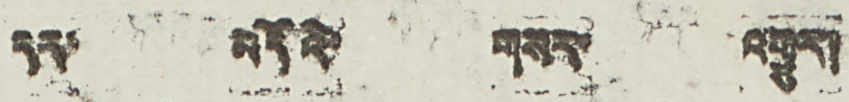དར་ མདོའི་ གསར་ འགྱུར།
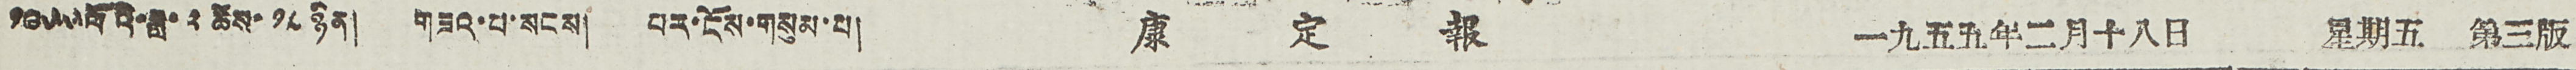༡༩༥༥ ལོའི་ཟླ་ ༢ ཚེས་ ༡༨ ཉིན། གཟའ་པ་སངས། པར་ངོས་གསུམ་པ། 康 定 報 一九五五年二月十八日 星期五 第三版
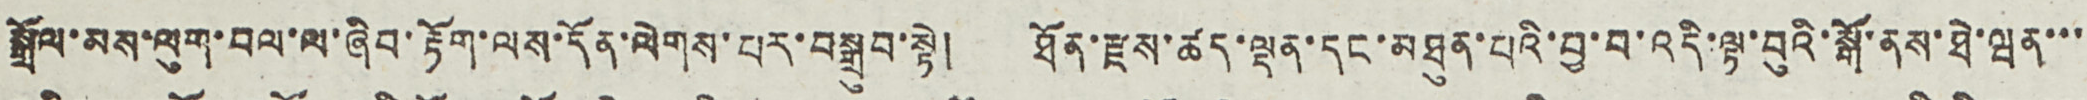སྒྲོལ་མས་ལུག་བལ་ལ་ཞིབ་རྟོག་ལས་དོན་ལེགས་པར་བསྒྲུབ་སྟེ། ཐོན་རྗས་ཚད་ལྡན་དང་མཐུན་པའི་བྱ་བ་འདི་ལྟ་བུའི་སྒོ་ནས་ཐེ་ཝན་་་
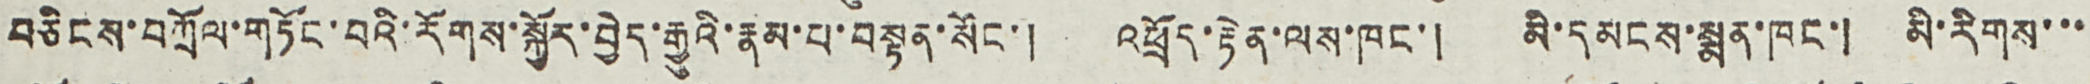བཅིངས་བཀྲོལ་གཏོང་བའི་རོགས་སྐྱོར་བྱེད་རྒྱུའི་རྣམ་པ་བསྟན་སོང་། འཕྲོད་རྟེན་ལས་ཁང་། མི་དམངས་སྨན་ཁང་། མི་རིགས་་་
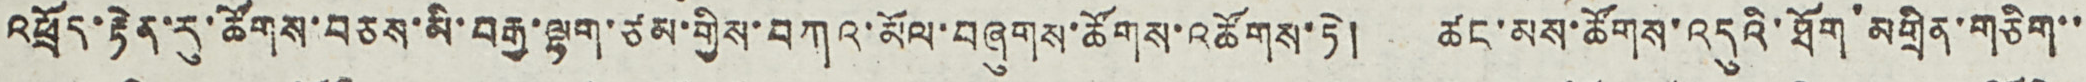འཕྲོད་རྟེན་རུ་ཚོགས་བཅས་མི་བརྒྱ་ལྷག་ཙམ་གྱིས་བཀའ་མོལ་བཞུགས་ཚོགས་འཚོགས་ཏེ། ཚང་མས་ཚོགས་འདུའི་ཐོག་མགྲིན་གཅིག་་
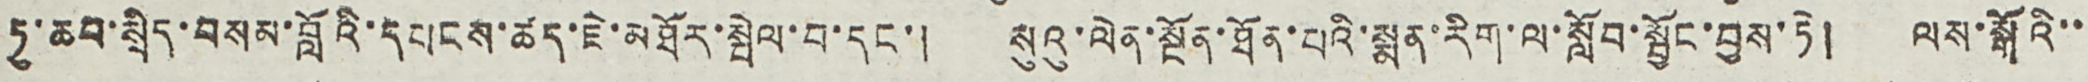ཏུ་ཆབ་སྲིད་བསམ་བློའི་དཔངས་ཚད་ཇེ་མཐོར་སྤེལ་བ་དང་། སུའུ་ལེན་སྔོན་ཐོན་པའི་སྨན་རིག་ལ་སློབ་སྦྱོང་བྱས་ཏེ། ལས་སྒོའི་་
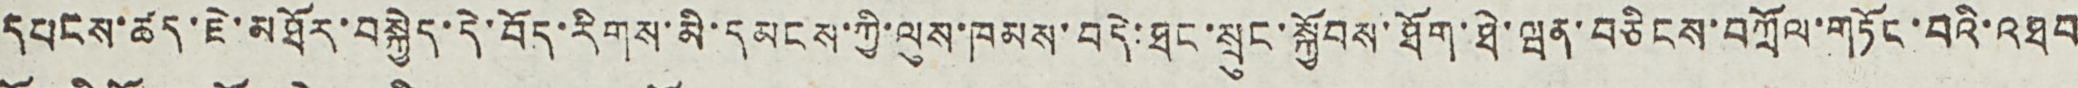དཔངས་ཚད་ཇེ་མཐོར་བསྐྱེད་དེ་བོད་རིགས་མི་དམངས་ཀྱི་ལུས་ཁམས་བདེ་ཐང་སྲུང་སྐྱོབས་ཐོག་ཐེ་ཝན་བཅིངས་བཀྲོལ་གཏོང་བའི་འཐབ
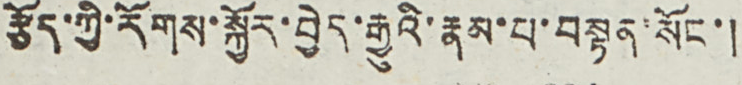རྩོད་ཀྱི་རོགས་སྐྱོར་བྱེད་རྒྱུའི་རྣམ་པ་བསྟན་སོང་།
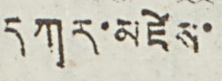དཀར་མཛེས་
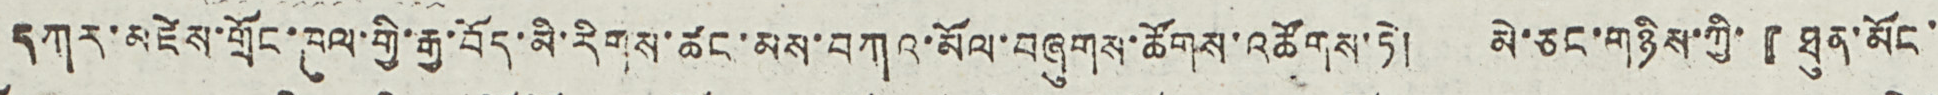དཀར་མཛེས་གྲོང་ཁུལ་གྱི་རྒྱ་བོད་མི་རིགས་ཚང་མས་བཀའ་མོལ་བཞུགས་ཚོགས་འཚོགས་ཏེ། མེ་ཅང་གཉིས་ཀྱི་『ཐུན་མོང་
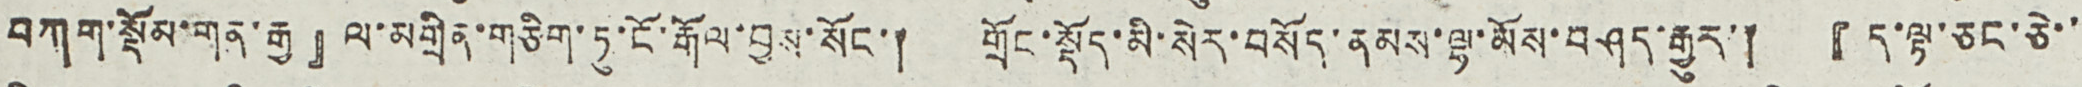བཀག་སྡོམ་གན་རྒྱ』ལ་མགྲིན་གཅིག་ཏུ་ངོ་རྒོལ་བྱས་སོང་། གྲོང་སྡོད་མི་སེར་བསོད་ནམས་ལྷ་མོས་བཤད་རྒྱུར་། 『ད་ལྟ་ཅང་ཅེ་་
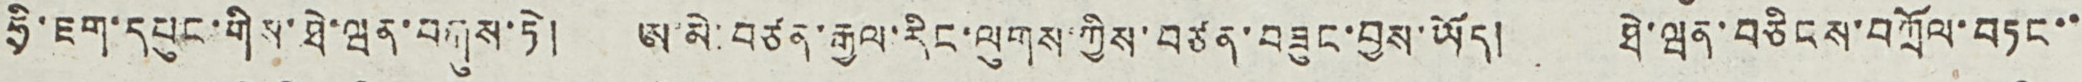ཧྲི་ཇག་དཔུང་གིས་ཐེ་ཝན་བརྐུས་ཏེ། ཨ་མེ་བཙན་རྒྱལ་རིང་ལུགས་ཀྱིས་བཙན་བཟུང་བྱས་ཡོད། ཐེ་ཝན་བཅིངས་བཀྲོལ་བཙང་་
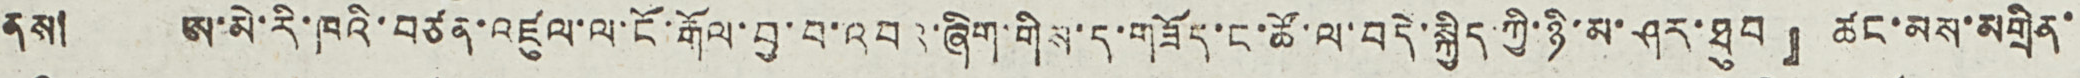ནས། ཨ་མེ་རི་ཁའི་བཙན་འཛུལ་ལ་ངོ་རྒོལ་བྱ་བ་འབའ་ཞིག་གིས་ད་གཟོད་ང་ཚོ་ལ་བདེ་སྐྱིད་ཀྱི་ཉི་མ་ཤར་ཐུབ』 ཚང་མས་མགྲིན་
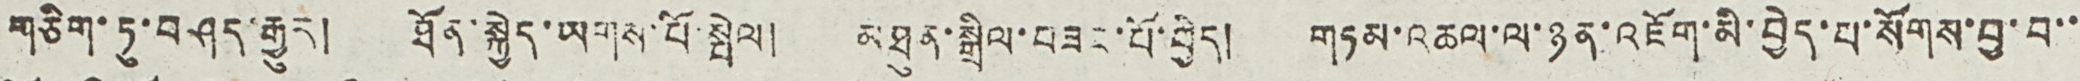གཅིག་ཏུ་བཤད་རྒྱུར། ཐོན་སྐྱེད་ཡགས་པོ་སྤེལ། མཐུན་སྒྲིལ་བཟང་པོ་བྱེད། གཏམ་འཆལ་ལ་ཉན་འཇོག་མི་བྱེད་པ་སོགས་བྱ་བ་་
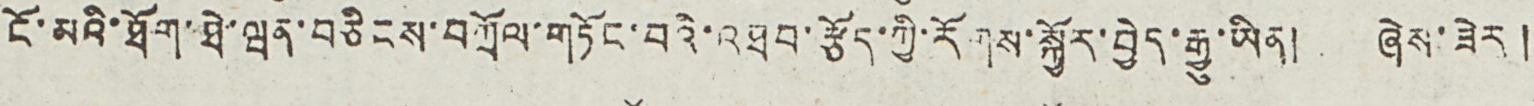ངོ་མའི་ཐོག་ཐེ་ཝན་བཅིངས་བཀྲོལ་གཏོང་བའི་འཐབ་རྩོད་ཀྱི་རོགས་སྐྱོར་བྱེད་རྒྱུ་ཡིན། ཞེས་ཟེར།
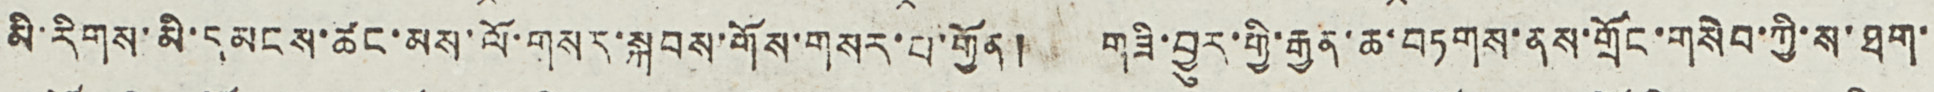མི་རིགས་མི་དམངས་ཚང་མས་ལོ་གསར་སྐབས་གོས་གསར་པ་གྱོན། གཟི་བྱུར་གྱི་རྒྱན་ཆ་བཏགས་ནས་གྲོང་གསེབ་ཀྱི་ས་ཐག་
